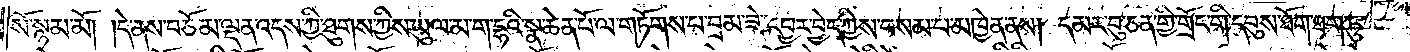སོ་སྙམ་མོ། །དེ་ནས་བཅོམ་ལྡན་འདས་ཀྱི་ཐུགས་ཀྱིས་ཡུལ་མ་ག་དྷའི་སྣ་ཆེན་པོ་ལ་གཏོགས་པ་བྲམ་ཟེ་དབྱར་བྱེད་ཀྱིས་བསམ་པ་མཁྱེན་ནས། དམར་བུ་ཅན་གྱི་གྲོང་གི་དབུས་ཐོག་ཐག་ཏུ་
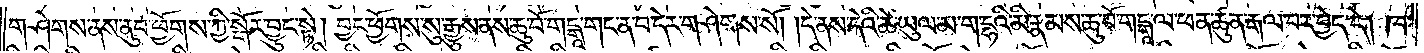གཤེགས་ནས་ནུབ་ཕྱོགས་ཀྱི་སྒོར་བྱུང་སྟེ། བྱང་ཕྱོགས་སུ་རྒྱུས་ནས་ཆུ་བོ་གངྒཱ་གང་ན་བ་དེར་གཤེགས་སོ། །དེ་ནས་དེའི་ཚེ་ཡུལ་མ་ག་དྷའི་མི་རྣམས་ཆུ་བོ་གངྒཱ་ལ་ཕན་ཚུན་རྒལ་བར་བྱེད་དེ། ཁ་
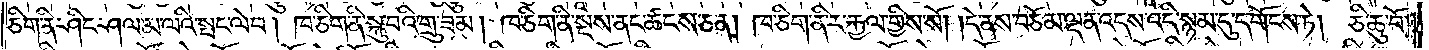ཅིག་ནི་ཤིང་ཤལ་མ་ལའི་སྤང་ལེབ། ཁ་ཅིག་ནི་སྐུ་བའི་གྲུ་ཟམ། ཁ་ཅིག་ནི་སྔས་ནང་ཚངས་ཅན། ཁ་ཅིག་ནི་ར་རྐྱལ་གྱིས་སོ། །དེ་ནས་བཅོམ་ལྡན་འདས་འདི་སྙམ་དུ་དགོངས་ཏེ། ཅི་ཆུ་བོ་
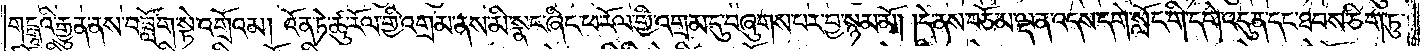གངྒཱའི་རྒྱུན་ནས་བཟློག་སྟེ་འགྲོའམ། འོན་ཏེ་ཚུ་རོལ་གྱི་འགྲམ་ནས་མི་སྣང་ཞིང་ཕ་རོལ་གྱི་འགྲམ་དུ་བཞུགས་པར་བྱ་སྙམ་མོ། །དེ་ནས་བཅོམ་ལྡན་འདས་དགེ་སློང་གི་དགེ་འདུན་དང་ཐབས་ཅིག་ཏུ་
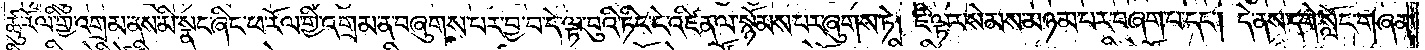ཚུ་རོལ་གྱི་འགྲམ་ནས་མི་སྣང་ཞིང་ཕ་རོལ་གྱི་འགྲམ་ན་བཞུགས་པར་བྱ་བ་དེ་ལྟ་བུའི་ཏིང་ངེ་འཛིན་ལ་སྙོམས་པར་ཞུགས་ཏེ། ཇི་ལྟར་སེམས་མཉམ་པར་བཞག་པ་དང༌། དེ་ནས་དགེ་སློང་གཞན་
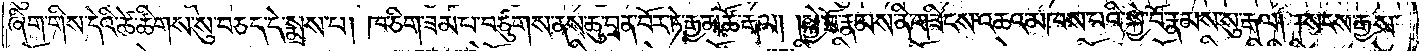ཞིག་གིས་དེའི་ཚེ་ཚིགས་སུ་བཅད་དེ་སྨྲས་པ། ཁ་ཅིག་ཟམ་པ་བཙུགས་ནས་ཆུ་བྲན་བོར་ཏེ་རྒྱ་མཚོ་རྒལ། །སྐྱེ་བོ་རྣམས་ནི་གཟིངས་འཆའ་མཁས་པའི་སྐྱེ་བོ་རྣམས་སུ་རྒལ། །སངས་རྒྱས་
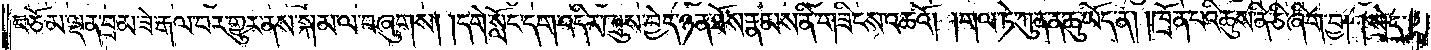བཅོམ་ལྡན་བྲམ་ཟེ་རྒལ་བར་གྱུར་ནས་སྐམ་ལ་བཞུགས། །དགེ་སློང་དག་འདིར་ཁྲུས་བྱེད་ཉན་ཐོས་རྣམས་ནི་གཟིངས་འཆའོ། །གལ་ཏེ་ཀུན་ན་ཆུ་ཡོད་ན། །ཁྲོན་པའི་ཆུས་ནི་ཅི་ཞིག་བྱ། །སྲེད་
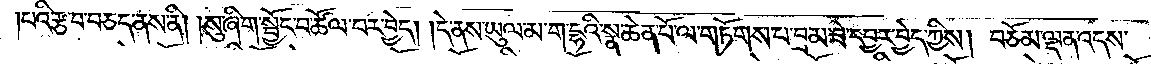པའི་རྩ་བ་བཅད་ནས་ནི། །སུ་ཞིག་སྦྱོང་བ་ཚོལ་བར་བྱེད། །དེ་ནས་ཡུལ་མ་ག་དྷའི་སྣ་ཆེན་པོ་ལ་གཏོགས་པ་བྲམ་ཟེ་དབྱར་བྱེད་ཀྱིས། བཅོམ་ལྡན་འདས་
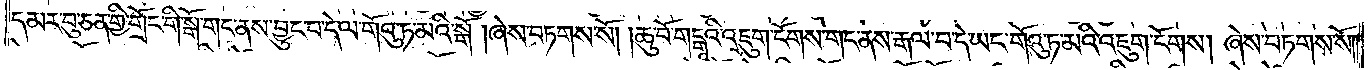དམར་བུ་ཅན་གྱི་གྲོང་གི་སྒོ་གང་ནས་བྱུང་བ་དེ་ལ་གོའུ་ཏ་མའི་སྒོ་།ཞེས་བཏགས་སོ། །ཆུ་བོ་གངྒཱའི་འཇུག་ངོགས་གང་ནས་རྒལ་བ་དེ་ཡང་གོའུ་ཏ་མའི་འཇུག་ངོགས། ཞེས་བཏགས་སོ༎
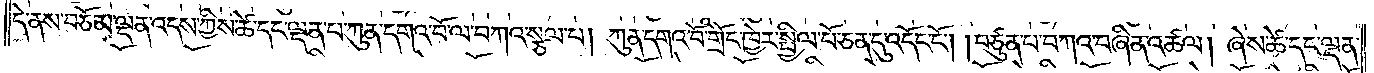དེ་ནས་བཅོམ་ལྡན་འདས་ཀྱིས་ཚེ་དང་ལྡན་པ་ཀུན་དགའ་བོ་ལ་བཀའ་སྩལ་པ། ཀུན་དགའ་བོ་གྲོང་ཁྱེར་སྤྱིལ་པོ་ཅན་དུ་འདོང་ངོ༌། །བཙུན་པ་བཀའ་བཞིན་འཚལ། ཞེས་ཚེ་དང་ལྡན་
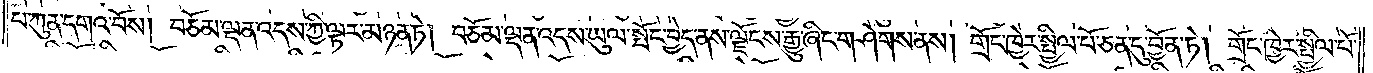པ་ཀུན་དགའ་བོས། བཅོམ་ལྡན་འདས་ཀྱི་ལྟར་མཉན་ཏེ། བཅོམ་ལྡན་འདས་ཡུལ་སྤོང་བྱེད་ནས་ལྗོངས་རྒྱུ་ཞིང་གཤེགས་ནས། གྲོང་ཁྱེར་སྤྱིལ་པོ་ཅན་དུ་བྱོན་ཏེ། གྲོང་ཁྱེར་སྤྱིལ་པོ་
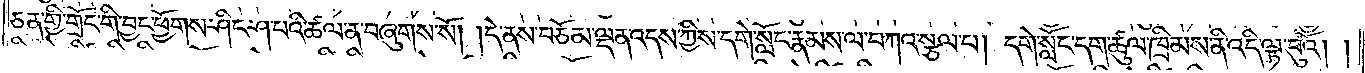ཅན་གྱི་གྲོང་གི་བྱང་ཕྱོགས་ཤིང་ཤ་པའི་ཚལ་ན་བཞུགས་སོ། །དེ་ནས་བཅོམ་ལྡན་འདས་ཀྱིས་དགེ་སློང་རྣམས་ལ་བཀའ་སྩལ་པ། དགེ་སློང་དག་ཚུལ་ཁྲིམས་ནི་འདི་ལྟ་བུའོ། །
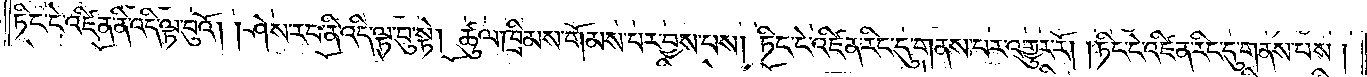ཏིང་ངེ་འཛིན་ནི་འདི་ལྟ་བུའོ། །ཤེས་རབ་ནི་འདི་ལྟ་བུ་སྟེ། ཚུལ་ཁྲིམས་གོམས་པར་བྱས་པས། ཏིང་ངེ་འཛིན་རིང་དུ་གནས་པར་འགྱུར་རོ། །ཏིང་ངེ་འཛིན་རིང་དུ་གནས་པས།
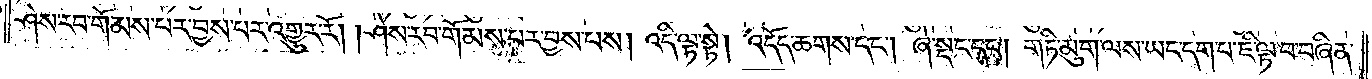ཤེས་རབ་གོམས་པར་བྱས་པར་འགྱུར་རོ། །ཤེས་རབ་གོམས་པར་བྱས་པས། འདི་ལྟ་སྟེ། འདོད་ཆགས་དང༌། ཞེ་སྡང་དང༌། གཏི་མུག་ལས་ཡང་དག་པ་ཇི་ལྟ་བ་བཞིན་
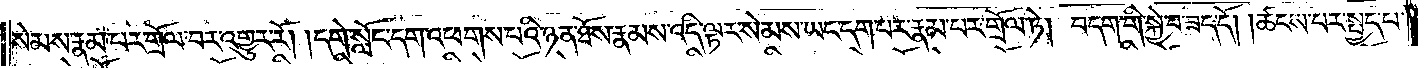སེམས་རྣམ་པར་གྲོལ་བར་འགྱུར་རོ། །དགེ་སློང་དག་འཕགས་པའི་ཉན་ཐོས་རྣམས་འདི་ལྟར་སེམས་ཡང་དག་པར་རྣམ་པར་གྲོལ་ཏེ། བདག་གི་སྐྱེ་བ་ཟད་དོ། །ཚངས་པར་སྤྱད་པ་
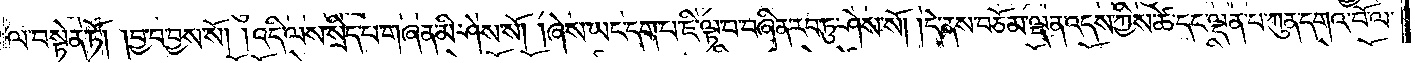ལ་བསྟེན་ཏོ། །བྱ་བ་བྱས་སོ། །འདི་ལས་སྲིད་པ་གཞན་མི་ཤེས་སོ། །ཞེས་ཡང་དག་པ་ཇི་ལྟ་བ་བཞིན་རབ་ཏུ་ཤེས་སོ། །དེ་ནས་བཅོམ་ལྡན་འདས་ཀྱིས་ཚེ་དང་ལྡན་པ་ཀུན་དགའ་བོ་ལ་
